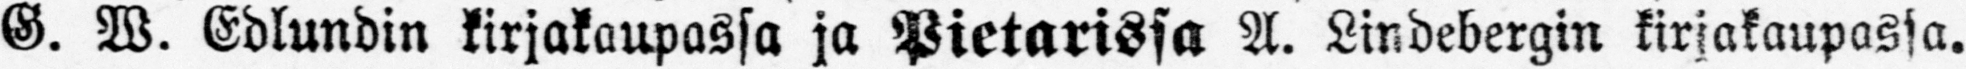G. W. Edlundin kirjakaupassa ja Pietarissa A. Lindebergin kirjakaupassa.
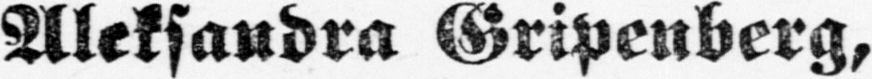Aleksandra Gripenberg,
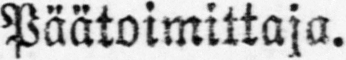Päätoimittaja.
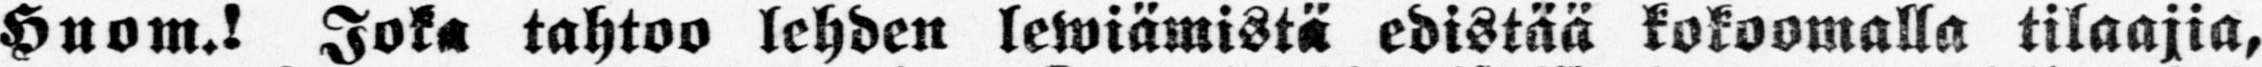Huom.! Joka tahtoo lehden lewiämistä edistää kokoomalla tilaajia,
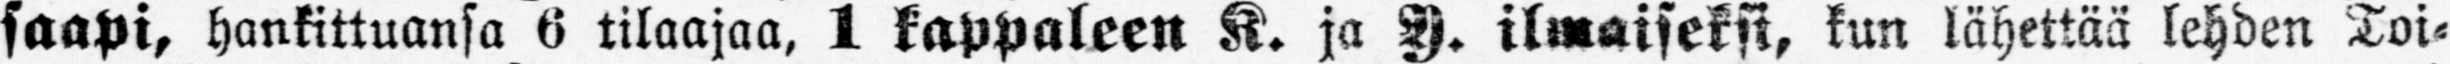saapi, hankittuansa 6 tilaajaa, 1 kappaleen K. ja A. ilmaiseksi, kun lähettää lehden Toi-
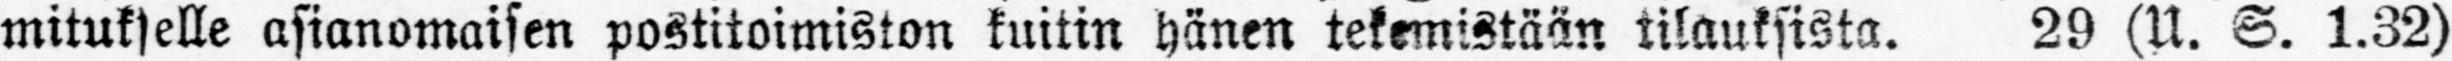mitukselle asianomaisen postitoimiston kuitin hänen tekemistään tilauksista. 29 (U. S. 1.32)
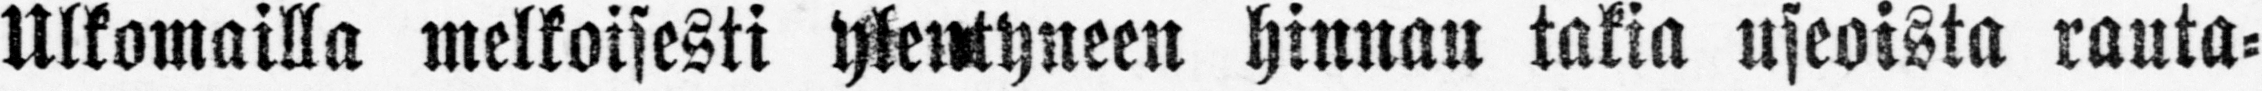Ulkomailla melkoisesti ylentyneen hinnan takia useoista rauta-
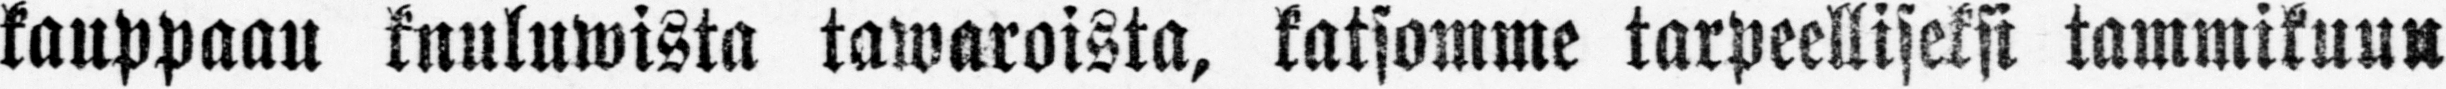kauppaan kuuluwista tawaroista, katsomme tarpeelliseksi tammikuun
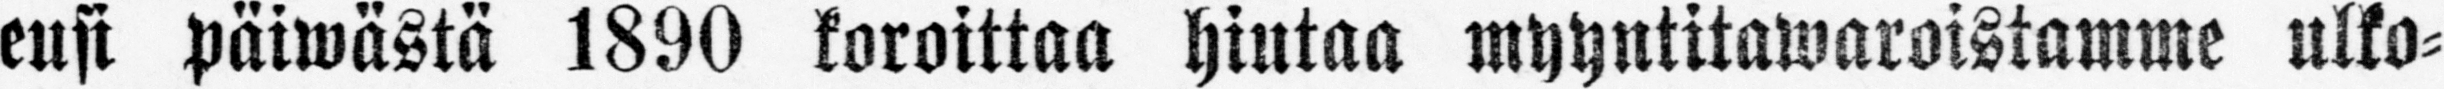ensi päiwästä 1890 koroittaa hiutaa myyntitawaroistamme ulko-
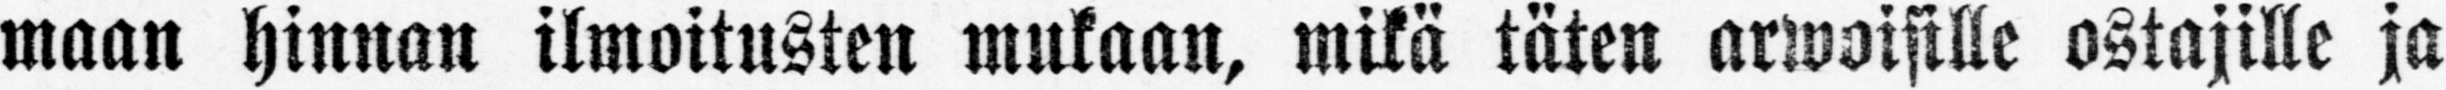maan hinnan ilmoitusten mukaan, mikä täten arwoisille ostajille ja
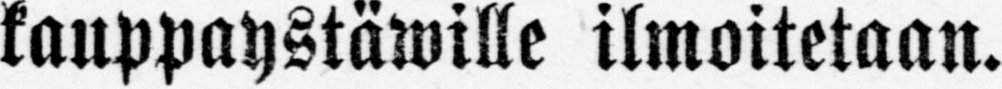kauppaystäwille ilmoitetaan.
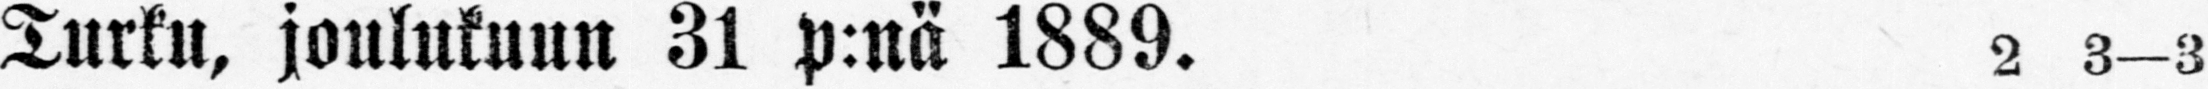Turku, joulukuun 31 p:nä 1889. 2 3-3
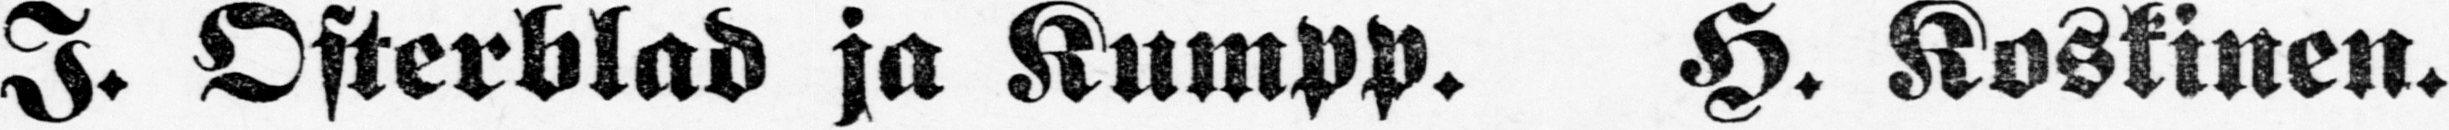I. Österblad ja Kumpp. H. Kostinen.
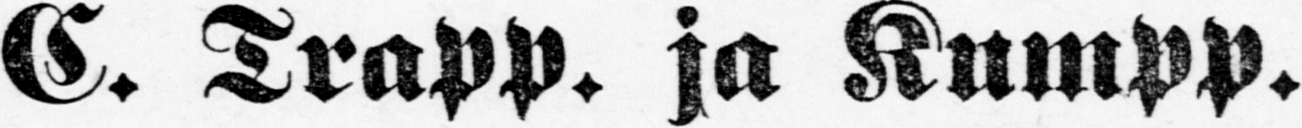C. Trapp. ja Kumpp.
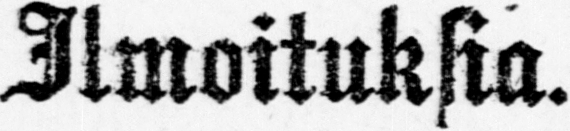Ilmoituklia.
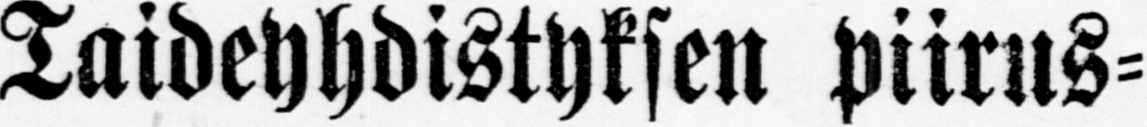Taideyhdistyksen piirus-
